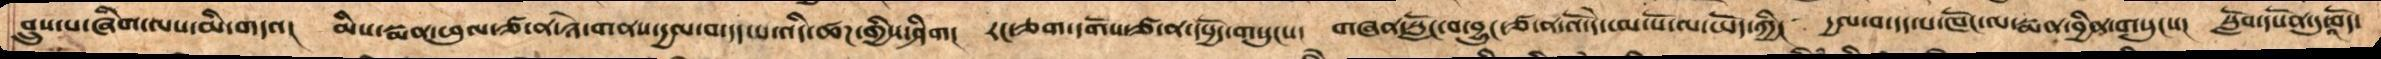བྲུས་པ་ཞིག་ལས་མི་གདའ།   མིས་སྨན་ཕུལ་ཙ་ན་ཉེ་གནས་དྱལ་བ་དད་པ་འདི་ཚཌ་གྱིས་ཤིག།   རང་ཅག་དགོས་ཙ་ན་དཔྱོད་གསུངས།   གཞན་སློང་བ་བྱུང་ཙ་ན་འོ་དེ་ཨ་པོ་ལ་ཡོད་ཀྱི།   དྱལ་བ་དད་པ་ཁོང་ལ་སྨན་བྱིན་གསུངས།   སློབ་དཔོན་དུ་འབོད་
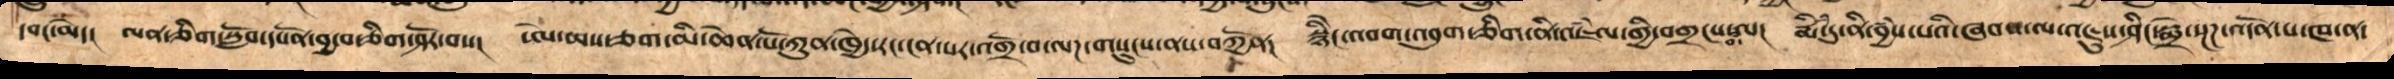དབང་མེད།   ལན་གཅིག་སློབ་དཔོན་བྱ་བ་ཅིག་ཤོར་བས།   ཨེ་ཡས་ཅག་མི་ཆེན་པོ་ཀུན་ཁྱེད་རང་ངན་པར་འགྲོ་བ་ལཌ་གསུངས་ནས་བཀྱོན།    སྙིེང་འབག་འབུག་ཅིག་ནི་འཇཾལ་གྱི་བགྲངས་བ་ལ། རྨིཾ་དུ་ནི་བྱཾས་པའི་ཞབས་ལ་འཇུས་ཤིང་སྨྲེ་སྔཌ་འདོན་པ་ཁ་ན་
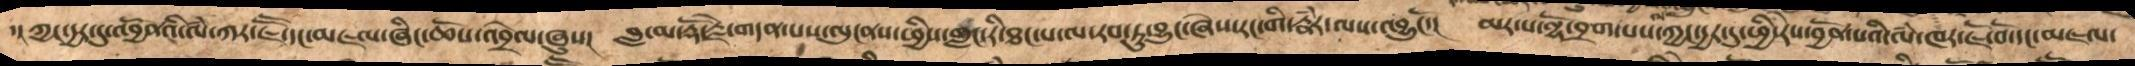་།ཀྱང་དྱར་དུ་འབྱོནའི་ལཾ་ཀར་ཇཽ་དང་མཇལ་ཞིང་ཆོས་འབྲེལ་ཞུས།   བླ་མ་རྡོ་རྗེ་གདན་པས་ལུངནས་ཕྱིས་གླང་རི་ཐང་པ་ལ་རབ་ཏུ་བྱུང་ཞེས་རང་གི་རྣཾར་ལས་འབྱུངོ་།  མར་པ་ལྷོ་བྲག་པས་ཀྱང་དྱར་དུ་ཕྱི་རེས་བྱོན་པའི་ལཾ་ཁར་ཇོ་བོ་དང་མཇལ་
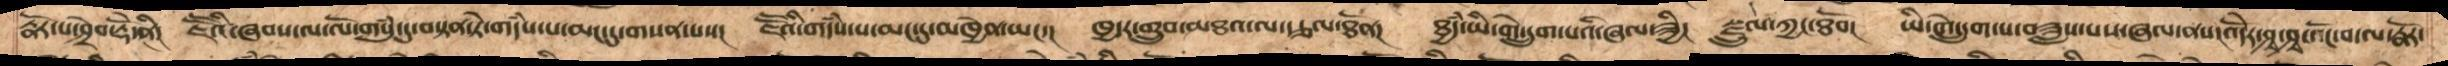རྣོར་པ་ཤྲེབ་རྡོེ་ནི།    ཇཽའི་ཞབས་ལ་ལོ་གསུཾ་དུ་བསྟན་ཏེ་གདཾས་པ་མང་དུ་གསན་པས།   ཇཽའི་གདཾས་པ་མང་དུ་མཁྱེན་ཡང་།   ཁྱདར་གྲུབ་མཐའ་ལ་རྩལ་ཐོན།   ཐྱཾད་ཡི་གེ་དྲུག་པའི་ཞལ་ཟྱི།  	སྫྲུལ་ཀྱང་ཐོབ།    ཡི་གེ་དྲུག་པ་བཟླས་པས་ཞལ་ནས་འདོེར་ཤྭ་ཤྭ་འོང་བ་ལ་རྣོར་
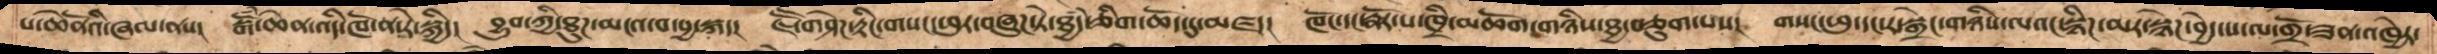པ་ཆེནོའི་ཞལ་ནས།     སྒོཾ་ཆེན་འདི་ཁོ་ན་རེ་སྐྱིད།   བྱུབ་ཀྱི་ཐུཌ་མངའ་བ་བྱ་སྐད།   ཇཽ་གཤེཌ་རྟིང་གསང་ཕུར་བཞུཌ་ཏེ་ཐྱཾད་ཅིག་ཆོད་དུ་མཛད།   ཁོང་དང་རྣོར་པ་ཁྲི་མཆོག་གཉིས་ཐྱ་བཅུག་པས།    གསང་ཕུ་དང་ར་སྒྲེང་གཉིས་ལའང་སྙིཌ་མར་སྙེཌ་བྱེད་པ་ལ་གྲོ་ཟན་འཁྱེར་
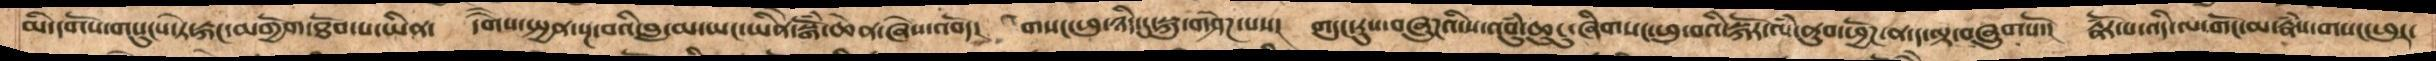མི་དགོས་གསུང་ཏེ་རྐང་མགྱོག་ཐོབ་པ་ཡིན།  དགཻས་སྤྱན་སྔ་བའི་བླ་མ་ཡང་ཡིནེ་སྒོཾ་ཆེན་ཞེས་འབོད།    གསང་ཕུ་ཉིད་དུ་སྐུ་གཤེཌ་པས།   གདུང་རུས་བཞུཌའི་ས་འབུཾ་ཆུངུ་ཞིགསང་ཕུ་བའི་སྐོར་ལཾ་ནུབ་ཕྱོཌ་ན་ད་ལྟ་བཞུགསོ་།  རྣོར་པ་འདི་ལ་གོང་མ་རྣཾས་གསང་ཕུར་
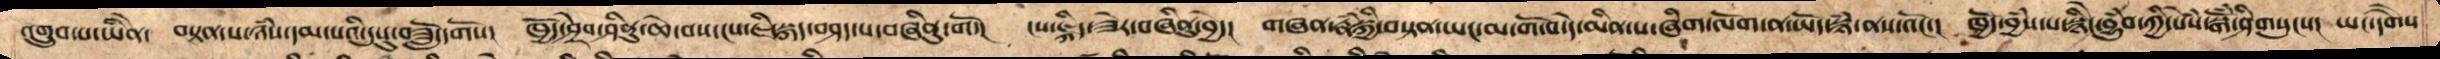འགྲུབ་པ་ཡིནེ།   བསྟན་པ་ཉཾས་དམ་པའི་དུསུ་བཟློ་དགོས།     ཁྱོད་ཤྲེབ་ཤིནྟུ་ཆེ་བས་ངས་ཇི་སྐད་བཤད་པ་བཞིནུ་གོ་།   ངས་ཇྐིད་ཟེར་བཞིནུ་བྱེད།   གཞན་རྣཾསྐྱི་བསྟན་ཡང་མ་གོ་བ་དེ་མིན་པ་ཞིག་ལོག་ན་ཡོད་སྙཾ་ནས་འོང་།   ཁྱོད་བྱཾས་པ་སྙིངེབྱུཾབ་ཀྱི་སེཾས་སྒོཾས་ཤིགསུངས།   ཡང་དགཻས
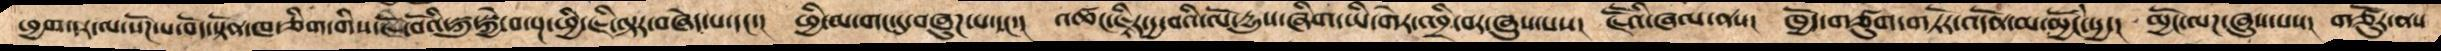ཕྱག་དར་ལ་སོཌ་པ་བོད་སྟོན་ཁ་ཅིག་གིས་ཇོ་བོའི་སྐུ་སྐྱེ་བ་སྔ་ཕྱི་ཇི་ལྟར་བཞེད་པ་དང་།    ཕྱི་མ་གང་དུ་བཞུཌ་པ་དང་།   འཚང་ཇྟིར་དྱ་བའི་ལོ་དྱུས་ཞིག་ཡི་གེར་འབྲི་བར་ཞུས་པས།  ཇཽའི་ཞལ་ནས།   ཁྱོད་གཙུག་གཏོར་འདོན་མ་མྱོངཾ་སྱ་།   མྱོང་ལཌ་ཞུས་པས།  གཙོུར་ནས
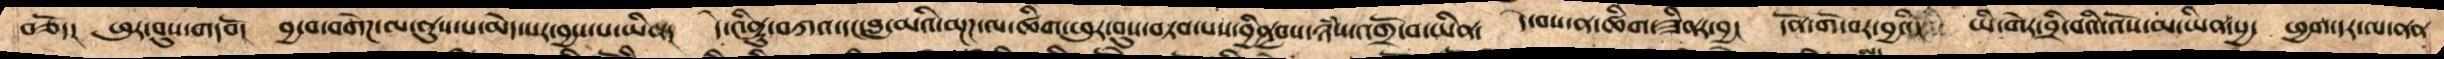གཅོད།   ཕུར་བུས་གདབོ།   བྱ་བ་བགེཌ་ལ་ནུས་པ་མེད་པར་བྱས་པ་ཡིན།   དེ་༤ིནུ་བཀའ་དང་བླ་མའི་མྔཌ་ལ་ཚིག་ཕུར་བུས་བཏབ་པས་བྱིནབླས་ཉཾས་འགྲོ་བ་ཡིན།   དེ་བས་ན་ཚིག་ཟིནར་བྱ།    དོན་གོ་བར་བྱའི་   ཡི་གེར་བྲི་བའི་འོས་མ་ཡིན་སྱ་   ཕྱག་དར་ལ་ནན
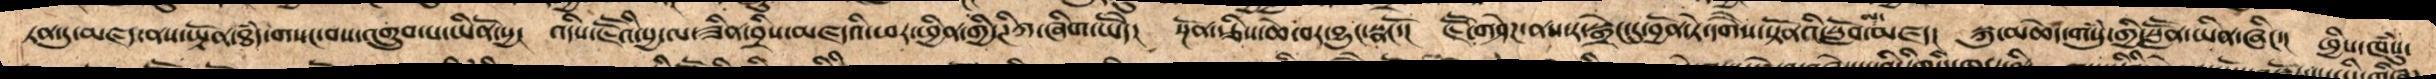ཏན་དུ་མཛད་ནས་ཡྟོན་ཐཾད་གསང་བས་འགྲུབ་པ་ཡིནོ་སྱ།   འདིས་ཇཽའི་སྱ་ལ་ཟིན་བྲིས་མཛདའི་ཕར་ཕྱིན་གྱི་ཊིཀ་ཞིག་ཡོདེ།   སྔོན་རྩིས་ཆེ་བར་བྱུང་སྣངོ་།    ཇཽ་གཤེཌ་ནས་ར་སྒྲེང་དུ་བྱོན་ཏེ་དགཻས་སྟོནའི་སློབ་མ་མཛད།   སྐུ་མཆེད་གསུཾ་གྱི་སླཽན་ཡིན་ཞིང་།  ཕྱིས་ཁཾསུ་
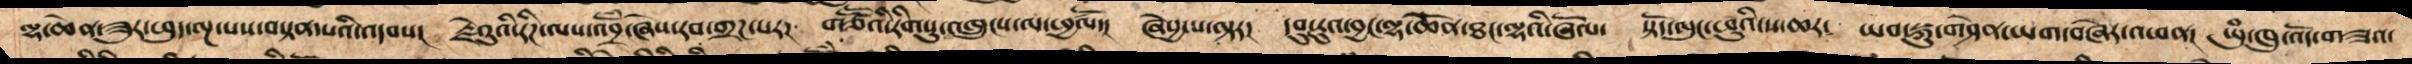ལྷ་ཆེན་ཟུར་ཕུད་ལྔ་པས་བསྟེན་པའི་འདབས།   རྗེའུའི་རིཌ་ལས་འབྲོཾ་ཞེས་རབ་གྲཌ་པར།   གཙཽའི་རིགསུ་འཁྲུངས་ལ་ཕྱཚལོ་།   ཞེསྱ་པ་ལྟར།   དབུ་རུའ་བྱང་ལྷ་ཆེན་ཐང་ལྷའི་ཞོལ།   སྟོད་ལུང་ཕུའི་ས་ཆར།   ཡབ་སྐུ་གཤེན་ཡག་གཞེར་འཕན།   ཡུཾ་ཁུ་འོད་གཟའ་
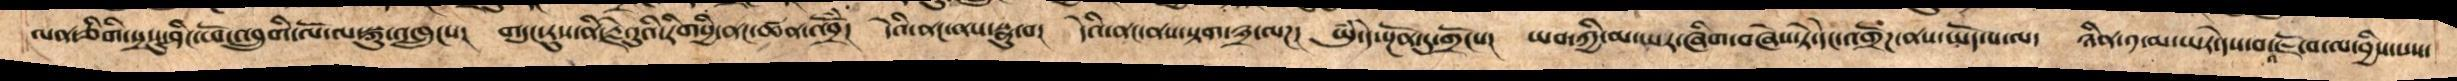ལན་ཅིགི་སྲསུ་ཤིང་ཕོ་འབྲུགི་ལོ་ལ་སྐུ་འཁྲུངས།   གདུང་རུས་ནི་རྗེའུའི་རིགསྱི་ནང་ཚན་འབྲོཾ།   དེའི་ནང་ནས་སྣུ་བ།   དེའི་ནང་ནས་སྟག་༣་ལཌ།   ཡུཾ་དེ་སྔོན་དུ་གྲོངས།   ཡབ་ཀྱི་མ་ཡར་ཞིག་བཞེས་ཏེ་དེ་དང་འགྲོཌ་ནས་ཡོད་པ་ལ།   ཉིན་༡་མ་ཡར་དེས་བ་འཇོ་བ་ལ་བྱིས་པས
